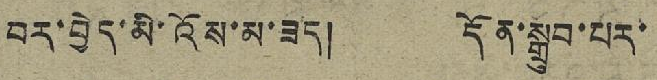བར་བྱེད་མི་འོས་མ་ཟད། དོན་སྒྲུབ་པར་
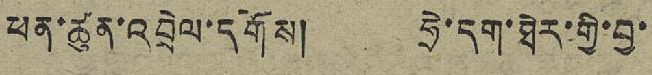ཕན་ཚུན་འབྲེལ་དགོས། ཧྲེ་དག་ཐེར་གྱི་བྱ་
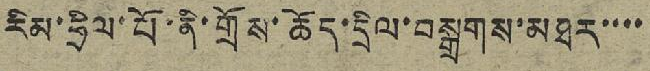རིམ་ཧྲིལ་པོ་ནི་གྲོས་ཆོད་དྲིལ་བསྒྲགས་མཐར་་་་
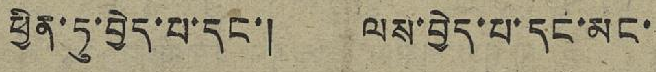ཕྱིན་ཏུ་བྱེད་པ་དང་། ལས་བྱེད་པ་དང་མང་
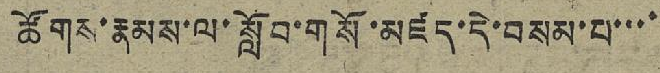ཚོགས་རྣམས་ལ་སློབ་གསོ་མཛད་དེ་བསམ་པ་་་་
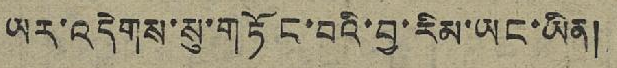ཡར་འདེགས་སུ་གཏོང་བའི་བྱ་རིམ་ཡང་ཡིན།
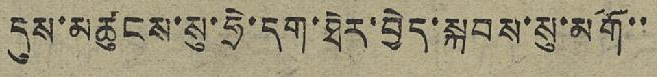དུས་མཚུངས་སུ་ཧྲེ་དག་ཐེར་བྱེད་སྐབས་སུ་མགོ་་
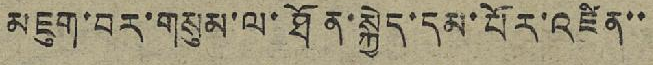མཇུག་བར་གསུམ་ལ་ཐོན་སྐྱེད་དམ་པོར་འཛིན་་
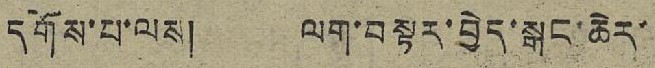དགོས་པ་ལས། ལག་བསྟར་བྱེད་སྒང་ཆེར་
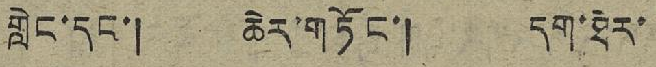གླེང་དང་། ཆེར་གཏོང་། དག་ཐེར་
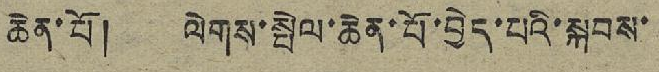ཆེན་པོ། ལེགས་སྤེལ་ཆེན་པོ་བྱེད་པའི་སྐབས་
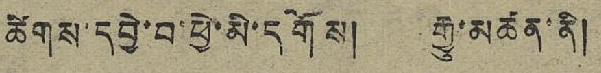ཚིགས་དབྱེ་བ་ཕྱེ་མི་དགོས། རྒྱུ་མཚན་ནི།
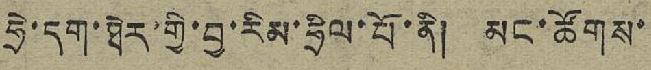ཧྲེ་དག་ཐེར་གྱི་བྱ་རིམ་ཧྲིལ་པོ་ནི། མང་ཚོགས་
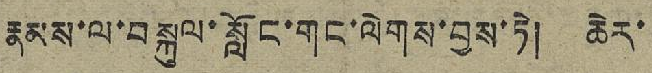རྣམས་ལ་བསྐུལ་སློང་གང་ལེགས་བྱས་ཏེ། ཆེར་
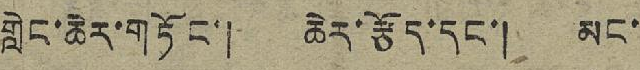གླེང་ཆེར་གཏོང་། ཆེར་རྩོད་དང་། མང་
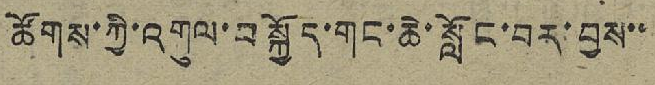ཚོགས་ཀྱི་འགུལ་བསྐྱོད་གང་ཆེ་སློང་བར་བྱས་་
